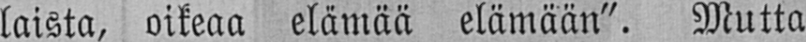laista, oikeaa elämää elämään". Mutta
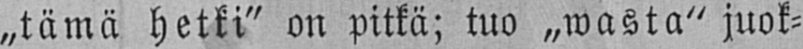„tämä hetki" on pitkä; tuo „wasta" juok-
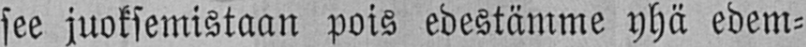see juoksemistaan pois edestämme yhä edem-
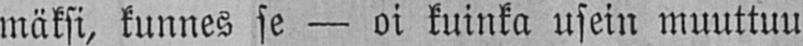mäksi, kunnes se — oi kuinka usein muuttuu
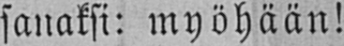sanaksi: myöhään!
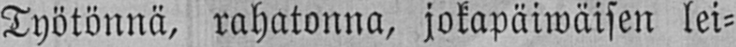Työtönnä, rahatonna, jokapäiwäisen lei-
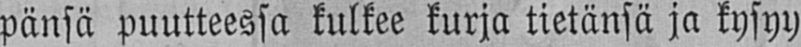pänsä puutteessa kulkee kurja tietänsä ja kysyy
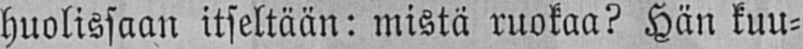huolissaan itseltään: mistä ruokaa? Hän kuu-
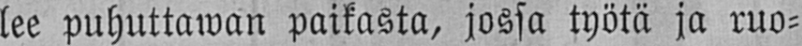lee puhuttawan paikasta, jossa työtä ja ruo-
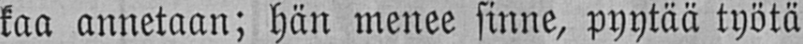kaa annetaan; hän menee sinne, pyytää työtä
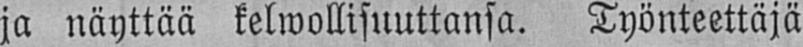ja näyttää kelwollisuuttansa. Työnteettäjä
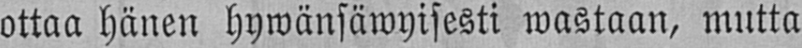ottaa hänen hywänsäwyisesti wastaan, mutta
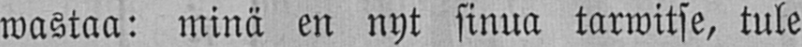wastaa: minä en nyt sinua tarwitse, tule
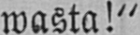wasta!"
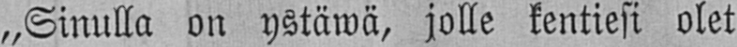„Sinulla on ystäwä, jolle kentiesi olet
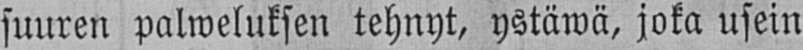suuren palweluksen tehnyt, ystäwä, joka usein
